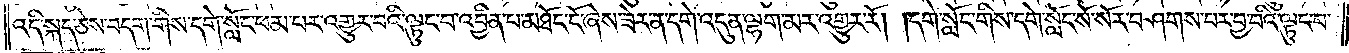འདི་སྐད་ཅེས་བདག་གིས་དགེ་སློང་ཕམ་པར་འགྱུར་བའི་ལྟུང་བ་འབྱིན་པ་མཐོང་ངོ་ཞེས་ཟེར་ན་དགེ་འདུན་ལྷག་མར་འགྱུར་རོ། །དགེ་སློང་གིས་དགེ་སློང་སོ་སོར་བཤགས་པར་བྱ་བའི་ལྟུང་བ་
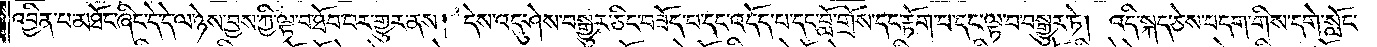འབྱིན་པ་མཐོང་ཞིང་དེ་དེ་ལ་ཉེས་བྱས་ཀྱི་ལྟ་བ་ཐོབ་པར་གྱུར་ནས། དེས་འདུ་ཤེས་བསྒྱུར་ཅིང་བཟོད་པ་དང་འདོད་པ་དང་བློ་གྲོས་དང་རྟོག་པ་དང་ལྟ་བ་བསྒྱུར་ཏེ། འདི་སྐད་ཅེས་བདག་གིས་དགེ་སློང་
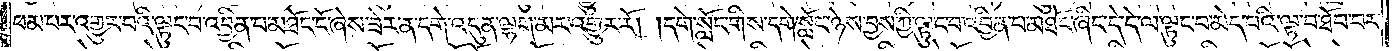ཕམ་པར་འགྱུར་བའི་ལྟུང་བ་འབྱིན་པ་མཐོང་ངོ་ཞེས་ཟེར་ན་དགེ་འདུན་ལྷག་མར་འགྱུར་རོ། །དགེ་སློང་གིས་དགེ་སློང་ཉེས་བྱས་ཀྱི་ལྟུང་བ་འབྱིན་པ་མཐོང་ཞིང་དེ་དེ་ལ་ལྟུང་བ་མེད་པའི་ལྟ་བ་ཐོབ་པར་
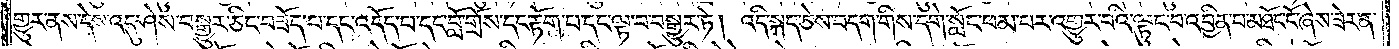གྱུར་ནས་དེས་འདུ་ཤེས་བསྒྱུར་ཅིང་བཟོད་པ་དང་འདོད་པ་དང་བློ་གྲོས་དང་རྟོག་པ་དང་ལྟ་བ་བསྒྱུར་ཏེ། འདི་སྐད་ཅེས་བདག་གིས་དགེ་སློང་ཕམ་པར་འགྱུར་བའི་ལྟུང་བ་འབྱིན་པ་མཐོང་ངོ་ཞེས་ཟེར་ན་
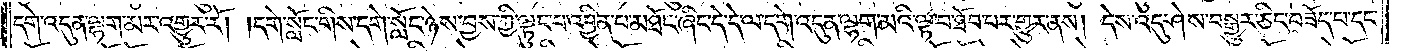དགེ་འདུན་ལྷག་མར་འགྱུར་རོ། །དགེ་སློང་གིས་དགེ་སློང་ཉེས་བྱས་ཀྱི་ལྟུང་བ་འབྱིན་པ་མཐོང་ཞིང་དེ་དེ་ལ་དགེ་འདུན་ལྷག་མའི་ལྟ་བ་ཐོབ་པར་གྱུར་ནས། དེས་འདུ་ཤེས་བསྒྱུར་ཅིང་བཟོད་པ་དང་
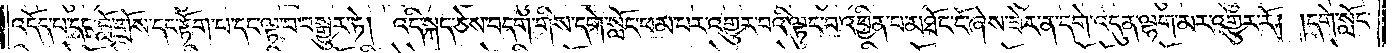འདོད་པ་དང་བློ་གྲོས་དང་རྟོག་པ་དང་ལྟ་བ་བསྒྱུར་ཏེ། འདི་སྐད་ཅེས་བདག་གིས་དགེ་སློང་ཕམ་པར་འགྱུར་བའི་ལྟུང་བ་འབྱིན་པ་མཐོང་ངོ་ཞེས་ཟེར་ན་དགེ་འདུན་ལྷག་མར་འགྱུར་རོ། །དགེ་སློང་
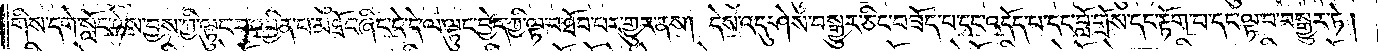གིས་དགེ་སློང་ཉེས་བྱས་ཀྱི་ལྟུང་བ་འབྱིན་པ་མཐོང་ཞིང་དེ་དེ་ལ་ལྟུང་བྱེད་ཀྱི་ལྟ་བ་ཐོབ་པར་གྱུར་ནས། དེས་འདུ་ཤེས་བསྒྱུར་ཅིང་བཟོད་པ་དང་འདོད་པ་དང་བློ་གྲོས་དང་རྟོག་པ་དང་ལྟ་བ་བསྒྱུར་ཏེ།
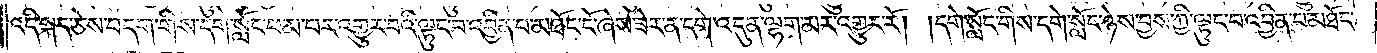འདི་སྐད་ཅེས་བདག་གིས་དགེ་སློང་ཕམ་པར་འགྱུར་བའི་ལྟུང་བ་འབྱིན་པ་མཐོང་ངོ་ཞེས་ཟེར་ན་དགེ་འདུན་ལྷག་མར་འགྱུར་རོ། །དགེ་སློང་གིས་དགེ་སློང་ཉེས་བྱས་ཀྱི་ལྟུང་བ་འབྱིན་པ་མཐོང་
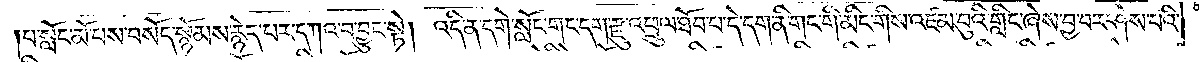པ་སློང་མོ་པས་བསོད་སྙོམས་རྙེད་པར་དཀའ་བ་བྱུང་སྟེ། འདི་ན་དགེ་སློང་གང་དག་རྫུ་འཕྲུལ་ཐོབ་པ་དེ་དག་ནི་གང་གི་མིང་གིས་འཛམ་བུའི་གླིང་ཞེས་བྱ་བར་ཤེས་པའི་
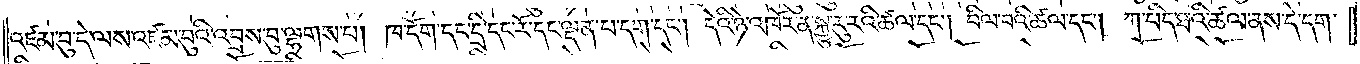འཛམ་བུ་དེ་ལས་འཛམ་བུའི་འབྲས་བུ་ལྷགས་པ། ཁ་དོག་དང་དྲི་དང་རོ་དང་ལྡན་པ་དག་དང༌། དེའི་ཉེ་འཁོར་ན་སྐྱུ་རུ་རའི་ཚལ་དང༌། བིལ་བའི་ཚལ་དང༌། ཀ་པིད་ཐའི་ཚལ་ནས་དེ་དག་
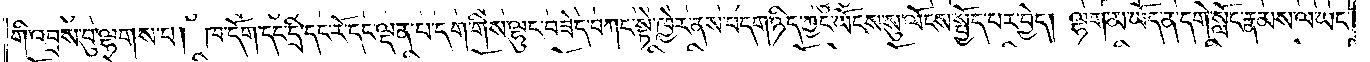གི་འབྲས་བུ་ལྷགས་པ། ཁ་དོག་དང་དྲི་དང་རོ་དང་ལྡན་པ་དག་གིས་ལྷུང་བཟེད་བཀང་སྟེ་ཁྱེར་ནས་བདག་ཉིད་ཀྱང་ཡོངས་སུ་ལོངས་སྤྱོད་པར་བྱེད། ལྷག་མ་ཡོད་ན་དགེ་སློང་རྣམས་ལ་ཡང་
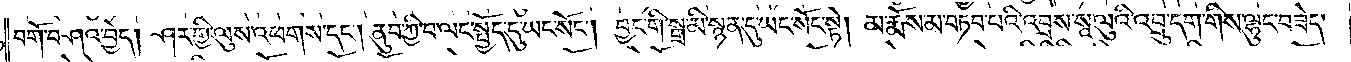བགོ་བཤའ་བྱེད། ཤར་གྱི་ལུས་འཕགས་དང༌། ནུབ་ཀྱི་བ་ལང་སྤྱོད་དུ་ཡང་སོང༌། བྱང་གི་སྒྲ་མི་སྙན་དུ་ཡང་སོང་སྟེ། མ་རྨོས་མ་བཏབ་པའི་འབྲས་སཱ་ལུའི་འབྲུ་དག་གིས་ལྷུང་བཟེད་
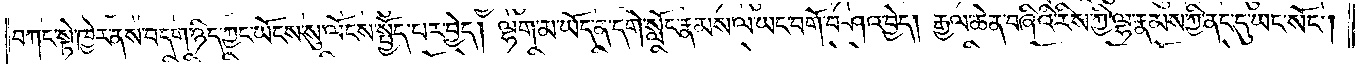བཀང་སྟེ་ཁྱེར་ནས་བདག་ཉིད་ཀྱང་ཡོངས་སུ་ལོངས་སྤྱོད་པར་བྱེད། ལྷག་མ་ཡོད་ན་དགེ་སློང་རྣམས་ལ་ཡང་བགོ་བཤའ་བྱེད། རྒྱལ་ཆེན་བཞིའི་རིས་ཀྱི་ལྷ་རྣམས་ཀྱི་ནང་དུ་ཡང་སོང༌།
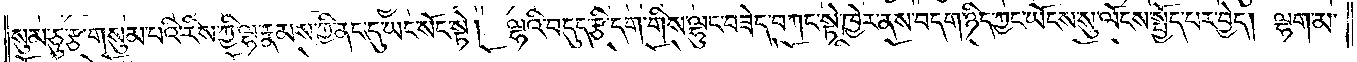སུམ་ཅུ་རྩ་གསུམ་པའི་རིས་ཀྱི་ལྷ་རྣམས་ཀྱི་ནང་དུ་ཡང་སོང་སྟེ། ལྷའི་བདུད་རྩི་དག་གིས་ལྷུང་བཟེད་བཀང་སྟེ་ཁྱེར་ནས་བདག་ཉིད་ཀྱང་ཡོངས་སུ་ལོངས་སྤྱོད་པར་བྱེད། ལྷག་མ་
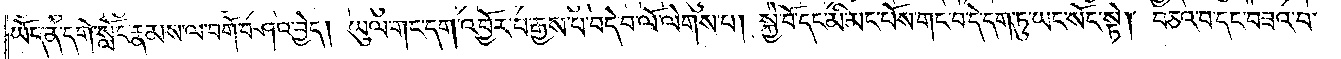ཡོད་ན་དགེ་སློང་རྣམས་ལ་བགོ་བཤའ་བྱེད། ཡུལ་གང་དག་འབྱོར་པ་རྒྱས་པ་བདེ་བ་ལོ་ལེགས་པ། སྐྱེ་བོ་དང་མི་མང་པོས་གང་བ་དེ་དག་ཏུ་ཡང་སོང་སྟེ། བཅའ་བ་དང་བཟའ་བ་
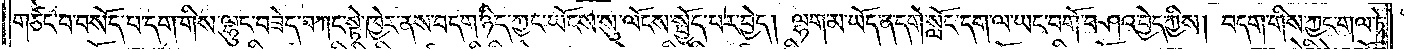གཙང་བ་བསོད་པ་དག་གིས་ལྷུང་བཟེད་བཀང་སྟེ་ཁྱེར་ནས་བདག་ཉིད་ཀྱང་ཡོངས་སུ་ལོངས་སྤྱོད་པར་བྱེད། ལྷག་མ་ཡོད་ན་དགེ་སློང་དག་ལ་ཡང་བགོ་བཤའ་བྱེད་ཀྱིས། བདག་གིས་ཀྱང་གལ་ཏེ་
